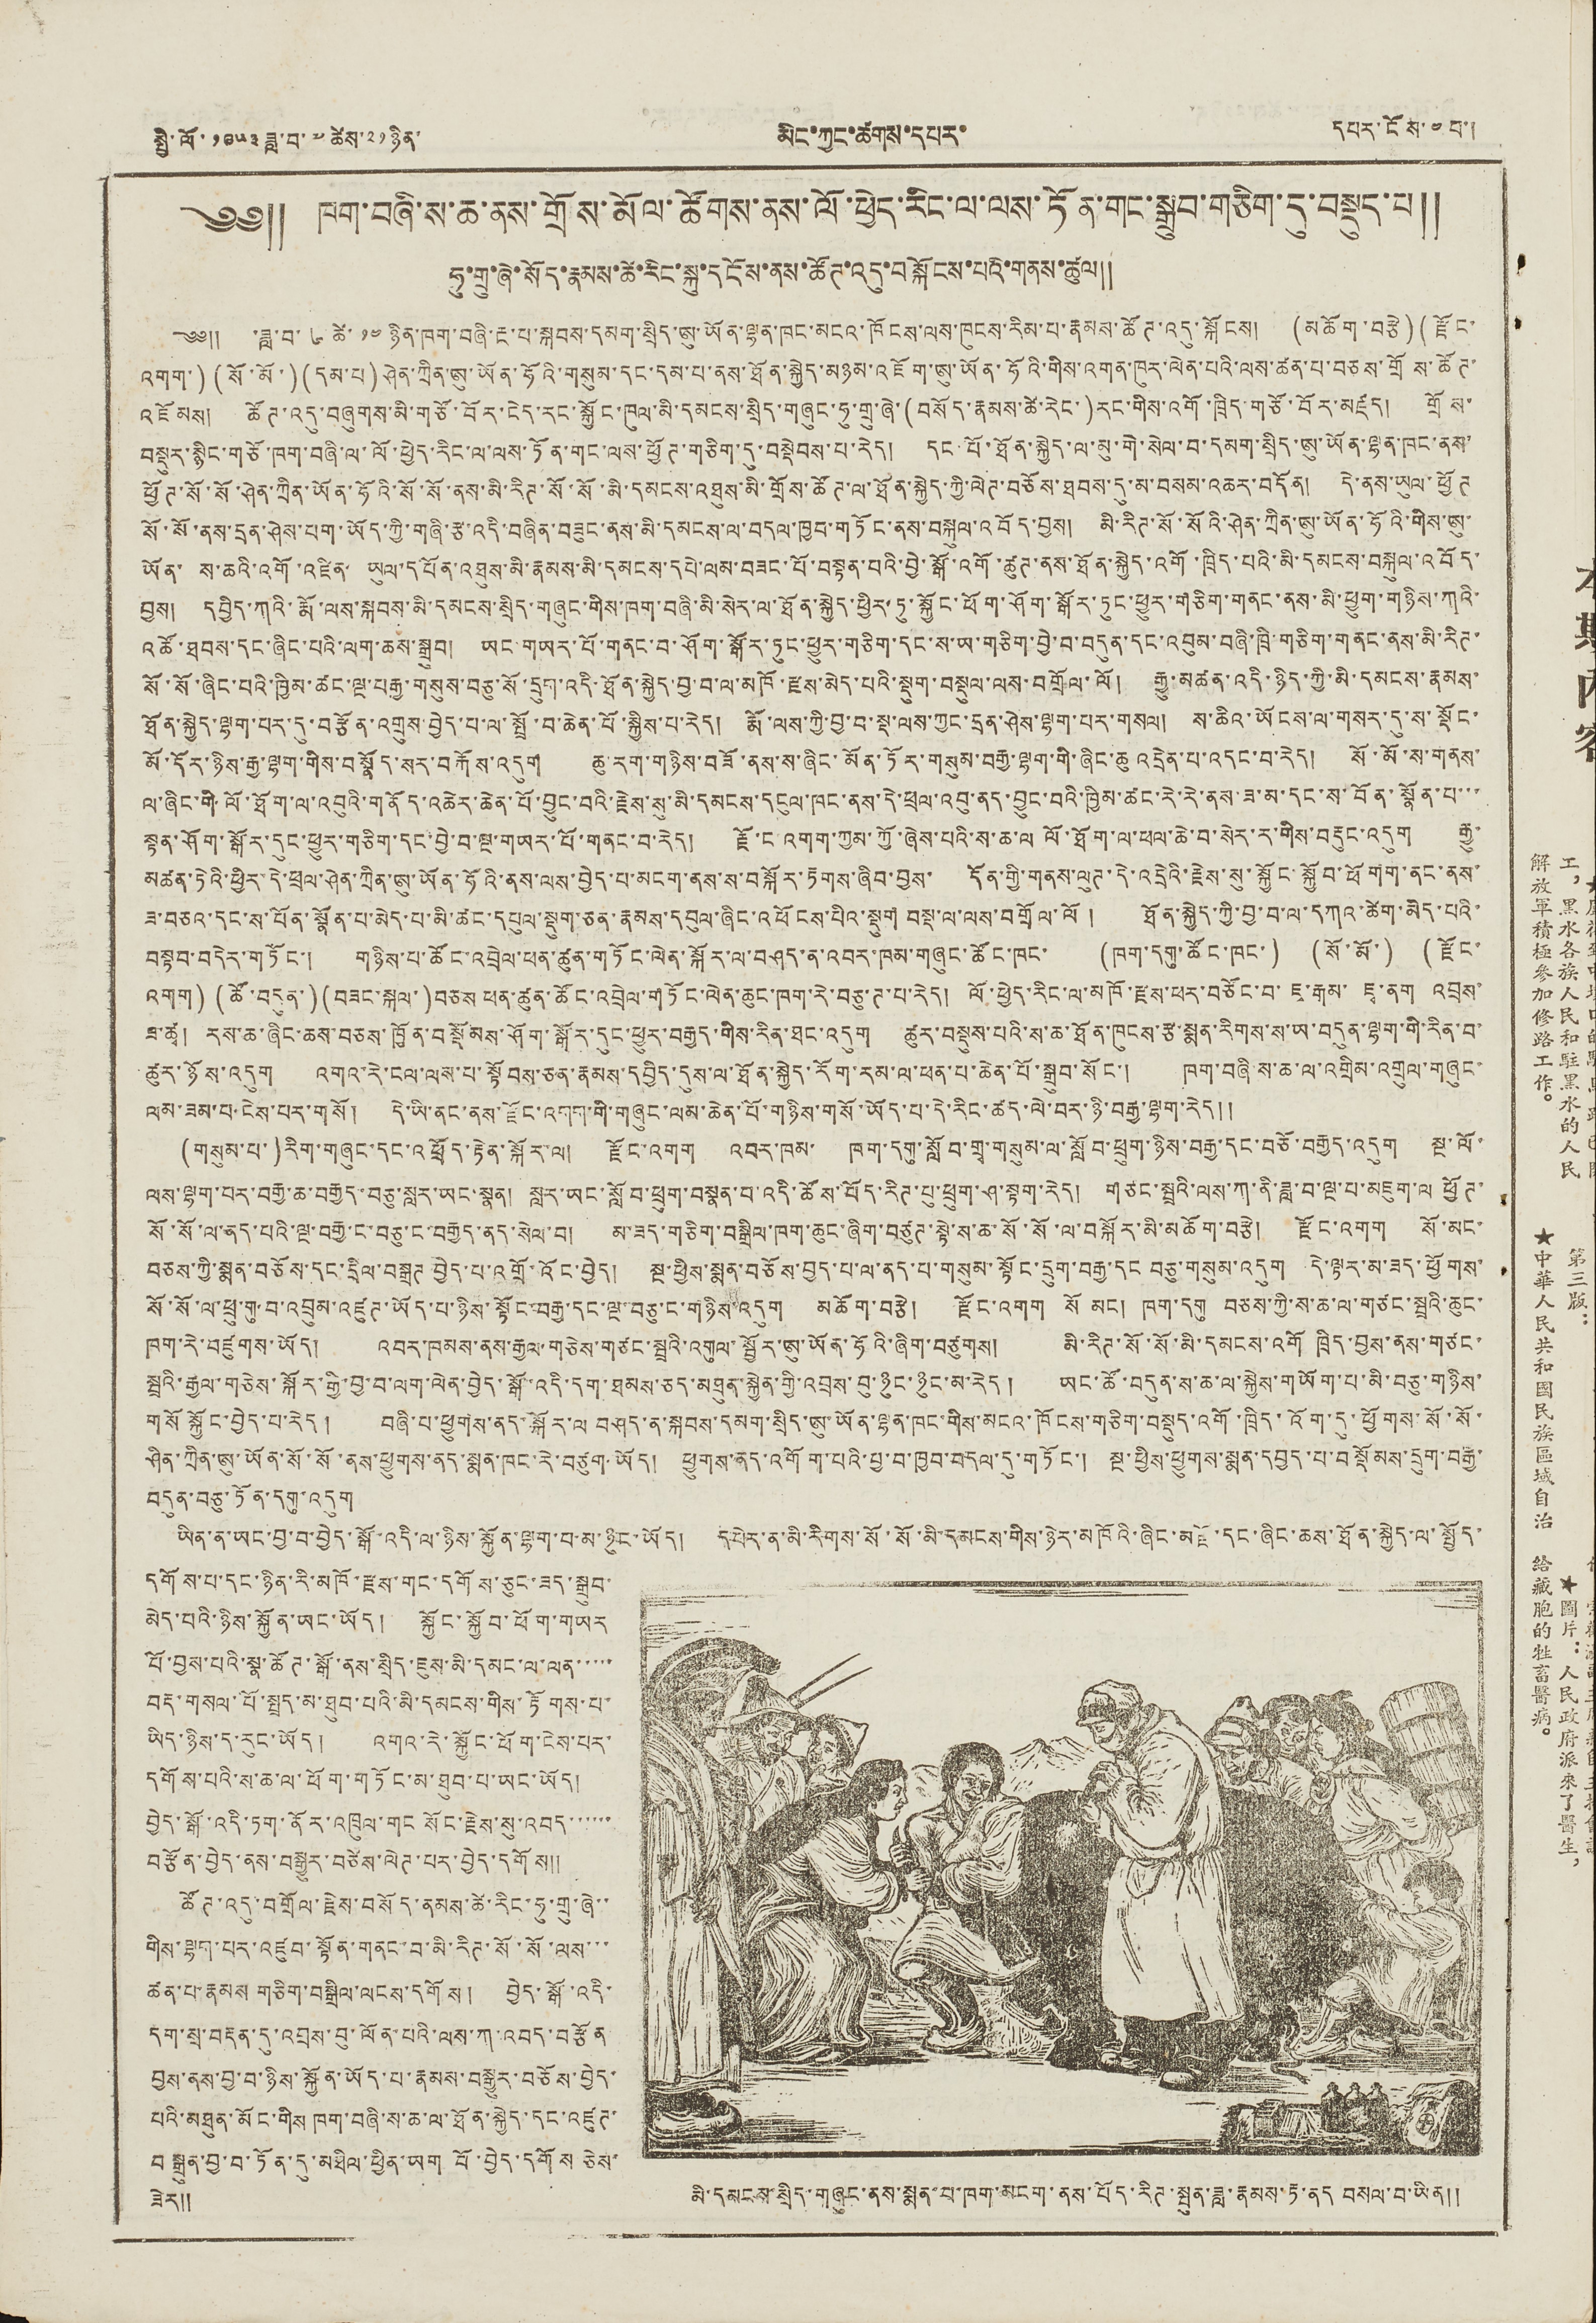སྤྱི་ལོ་ ༡༩༥༣ ཟླ་བ་ ༧ ཚེས་ ༢༡ ཉིན་ མིང་ཀྱང་ཚགས་དཔར་ དཔར་ངོས་ ༤ པ་།
༄༅༎ ཁག་བཞི་ས་ཆ་ནས་གྲོས་མོལ་ཚོགས་ནས་ལོ་ཕྱེད་རིང་ལ་ལས་ཏོན་གང་སྒྲུབ་གཅིག་དུ་བསྡུད་པ༎
ཧུ་གྲུ་ཞེ་སོད་རྣམས་ཚེ་རིང་སྐུ་དངོས་ནས་ཚོཊ་འདུ་བསྐོངས་པའི་གནས་ཚུལ༎
༄༅༎ ་ཟླ་བ་ ༦ ཚེ་ ༡༤ ཉིན་ཁག་བཞི་རྔ་པ་སྐབས་དམག་སྲིད་ཨུ་ཡོན་ལྷན་ཁང་མངའ་ཁོངས་ལས་ཁུངས་རིམ་པ་རྣམས་ཚོཊ་འདུ་སྐོངས། (མཆོག་བརྩེ་) (རྫོང་
འགག་) (སོ་མོ་) (དམ་པ) ཤེན་ཀྲིན་ཨུ་ཡོན་ཧོའི་གསུམ་དང་དམ་པ་ནས་ཐོན་སྐྱེད་མཉམ་འཇོག་ཨུ་ཡོན་ཧོའི་གིས་འགན་ཁུར་ལེན་པའི་ལས་ཚན་པ་བཅས་གྲོས་ཚོཊ་
འཇོམས། ཚོཊ་འདུ་བཞུགས་མི་གཙོ་བོར་ངེད་རང་སྐྱོང་ཁུལ་མི་དམངས་སྲིད་གཞུང་ཧུ་གྲུ་ཞེ་(བསོད་རྣམས་ཚེ་རེང་)རང་གིས་འགོ་ཁྲིད་གཙོ་བོར་མཛད། གྲོས་
བསྡུར་སྙིང་གཙོ་ཁག་བཞི་ལ་ལོ་ཕྱེད་རིང་ལ་ལས་ཏོན་གང་ལས་ཕྱོཊ་གཅིག་དུ་བསྡེབས་པ་རེད། དང་པོ་ཐོན་སྐྱེད་ལ་མུ་གེ་སེལ་བ་དམག་སྲིད་ཨུ་ཡོན་ལྷན་ཁང་ནས་
ཕྱོཊ་སོ་སོ་ཤེན་ཀྲིན་ཡོན་ཧོའི་སོ་སོ་ནས་མི་རིཊ་སོ་སོ་མི་དམངས་འཐུས་མི་གྲོས་ཚོཊ་ལ་ཐོན་སྐྱེད་ཀྱི་ལེཊ་བཅོས་ཐབས་དུ་མ་བསམ་འཆར་བདོན། དེ་ནས་ཡུལ་ཕྱོཊ
སོ་སོ་ནས་དྲན་ཤེས་པག་ཡོད་ཀྱི་གཞི་རྩ་འདི་བཞིན་བཟུང་ནས་མི་དམངས་ལ་བདལ་ཁྱབ་གཏོང་ནས་བསྐུལ་འབོད་བྱས། མི་རིཊ་སོ་སོའི་ཤེན་ཀྲིན་ཨུ་ཡོན་ཧོའི་གིས་ཨུ་
ཡོན་ ས་ཆའི་འགོ་འཛིན་ ཡུལ་དཔོན་འཐུས་མི་རྣམས་མི་དམངས་དཔེ་ལམ་བཟང་པོ་བསྟན་པའི་བྱེ་སྒོ་འགོ་ཚུཊ་ནས་ཐོན་སྐྱེད་འགོ་ཁྲིད་པའི་མི་དམངས་བསྐུལ་འབོད་
བྱས། དབྱིད་ཀའི་རྨོ་ལས་སྐབས་མི་དམངས་སྲིད་གཞུང་གིས་ཁག་བཞི་མི་སེར་ལ་ཐོན་སྐྱེད་ཕྱིར་ཏུ་སྐྱོང་ཕོག་ཤོག་སྒོར་ཏུང་ཕྱུར་གཅིག་གནང་ནས་མི་ཕྱུག་གཉིས་ཀའི་
འཚོ་ཐབས་དང་ཞིང་པའི་ལག་ཆས་སྒྲུབ། ཡང གཡར་པོ་གནང་བ་ཤོག་སྒོར་ཏུང་ཕྱུར་གཅིག་དང་ས་ཡ་གཅིག་བྱེ་བ་བདུན་དང་འབུམ་བཞི་ཁྲི་གཅིག་གནང་ནས་མི་རིཊ་
སོ་སོ་ཞིང་པའི་ཁྱིམ་ཚང་ལྔ་བརྒྱ་གསུས་བཅུ་སོ་དྲུག་འདི་ཐོན་སྐྱེད་བྱ་བ་ལ་མཁོ་རྫས་མེད་པའི་སྡུག་བསྡུལ་ལས་བགྲོལ་ལོ། རྒྱུ་མཚན་འདི་ཉིད་ཀྱི་མི་དམངས་རྣམས་
ཐོན་སྐྱེད་ལྷག་པར་དུ་བརྩོན་འགྲུས་བྱེད་པ་ལ་སྤྲོ་བ་ཆེན་པོ་སྐྱིས་པ་རེད། རྨོ་ལས་ཀྱི་བྱ་བ་སྡ་ལས་ཀྱང་དྲན་ཤེས་ལྷག་པར་གསལ། ས་ཆིའ་ཡོངས་ལ་གསར་དུ་ས་སྡོང་
མོ་དོར་ཉིས་རྒྱ་ལྷག་གིས་བསྣོད་སར་བརྐོས་འདུག ཆུ་རག་གཉིས་བཟོ་ནས་ས་ཞིང་མོན་ཏོར་གསུམ་བརྒྱ་ལྷག་གི་ཞིང་ཆུ འདྲེན་པ་འདང་བ་རེད། སོ་མོ་ས་གནས་
ལ་ཞིང་གི་ལོ་ཐོག་ལ་འབུའི་གནོད་འཚེར་ཆེན་པོ་བྱུང་བའི་རྗེས་སུ་མི་དམངས་དངུལ་ཁང་ནས་དེ་ཕྲལ་འབུ་ནད་བྱུང་བའི་ཁྱིམ་ཚང་རེ་རེ་ནས་ཟ་མ་དང་ས་བོན་སྣོན་པ་་་
སྟན་ཤོག་སྒོར་དུང་ཕྱུར་གཅིག་དང་བྱེ་བ་ལྔ་གཡར་པོ་གནང་བ་རེད། རྗོ་ང འགག་ཀྱམ་ཀྱོ་ཞེས་པའི་ས་ཆ་ལ ལོ་ཐོག་ལ་ཕལ་ཆེ་བ་སེར་ར་གིས་བརྡུང་འདུག རྒྱུ་
མཚན་ཏེའི་ཕྱིར་དེ་ཕྲལ་ཤེན་ཀྲིན་ཨུ་ཡོན་ཧོའི་ནས་ལས་བྱེད་པ་མངག་ནས་ས་བསྐོར་རྟགས་ཞིབ་བྱས་ དོན་གྱི་གནས་ལུཊ་དེ་འདྲེའི་རྗེས་སུ་སྐྱོང་སྐྱོབ་ཕོགག་ནང་ནས་
ཟ་བཅའ་དང་ས་བོན་སྣོན་པ་མེད་པ་མི་ཚང་དཔུལ་སྡུག་ཅན་རྣམས་དབུལ་ཞིང་འཕོངས་པིའ་སྡུག བསྡ་ལ་ལས་བགྲོལ་ལོ ། ཐོན་སྐྱེད་ཀྱི་བྱ་བ་ལ་དགའ་ཚེག་མེད་པའི་
བསྟབ་བདེར་གཏོང་། གཉིས་པ་ཚོང་འབྲེལ་ཕན་ཚུན་གཏོང་ལེན་སྐོར་ལ་བཤད་ན་འབར་ཁམ་གཞུང་ཚོང་ཁང་ (ཁག་དགུ་ཚོང་ཁང་) (སོ་མོ་) (རྫོང་
འགག) (ཚོ་བདུན་) (བཟང་སྐལ་)བཅས ཕན་ཚུན་ཚོང་འབྲེལ་གཏོང་ལེན་ཆུང་ཁག་རེ་བཅུ་ཊ་པ་རེད། ལོ་ཕྱེད་རིང་ལ་མཁོ་རྫས་ཕར་བཙོང་བ་ ཇྭ་རྒམ་ ཇྭ་ནག འབྲས་
ཟ་ཚྭ། རས་ཆ་ཞིང་ཆས་བཅས་ཁྱོན་བསྡོམས་ཤོག་སྒོར་དུང་ཕྱུར་བརྒྱད་གིས་རིན་ཐང་འདུག ཚུར་བསྡུས་པའི་ས་ཆ་ཐོན་ཁུངས་རྩ་སྨན་རིགས་ས་ཡ་བདུན་ལྷག་གི་རིན་བ་
ཚུར་ཉོས་འདུག འགའ་རེ་ངལ་ལས་པ་སྟོབས་ཅན་རྣམས་དབྱིད་དུས་ལ་ཐོན་སྐྱེད་རོག་རམ་ལ་ཕན་པ་ཆེན་པོ་སྒྲུབ་སོང་། ཁག་བཞི་ས་ཆ་ལ་འགྲིམ་འགྲུལ་གཞུང་
ལམ་ཟམ་བ་ངེས་པར་གསོ། དེ་ཡི་ནང་ནས་རྫོང་འགག་གི་གཞུང་ལམ་ཆེན་པོ་གཉིས་གསོ་ཡོད་པ་དེ་རིང་ཚད་ལེ་བར་ཉི་བརྒྱ་ལྷག་རེད༎
(གསུམ་པ་)རིག་གཞུང་དགན་འཕྲོད་རྟེན་སྐོར་ལ། རྫོང་འགག འབར་ཁམ་ ཁག་དགུ་སློབ་གྲྭ་གསུམ་ལ་སློབ་ཕྲུག་ཉིས་བརྒྱ་དང་བཅོ་བརྒྱད་འདུག སྔ་ལོ་
ལས་ལྷག་པར་བརྒྱ་ཆ་བརྒྱད་བཅུ་སླར་ཡང་སྣན། སླར་ཡང་སློབ་ཕྲུག་བསྣན་པ་འདི་ཚོས་བོད་རིཊ་པུ་ཕྲུག་ཤ་སྟག་རེད། གཙང་སྦྲའི་ལས་ཀ་ནི་ཟླ་བ་ལྔ་པ་མཇུག་ལ ཕྱོཊ་
སོ་སོ་ལ་ནད་པའི་ལྔ་བརྒྱ་ང་བཅུ་ང་བརྒྱད་ནས་སེལ་བ། མ་ཟད་གཅིག་བསྒྲིལ་ཁག་ཆུང་ཞིག་བཙུཊ་སྟེ་ས་ཆ་སོ་སོ་ལ་བསྐོར་མི་མཆོག་བརྩེ། རྫོང་འགག སོ་མང་
བཅས་ཀྱི་སྨན་བཅོས་དང་དྲིལ་བསྒྲཊ བྱེད་པ་འགྲོ་འོང་བྱེད། སྔ་ཕྱིས་སྨན་བཅོས་བྱད་པ་ལ་ནད་པ་གསུམ་སྟོང་དྲུག་བརྒྱ་དང བཅུ་གསུམ་འདུག དེ་ལྟར་མ་ཟད་ཕྱོགས་
སོ་སོ་ལ་ཕྲུ་གུ་བ་འབྲུམ་འཛུཊ་ཡོད་པ་ཉིས་སྟོང་བརྒྱ་དང་ལྔ་བཅུ་ང་གཉིས་འདུག མཆོག་བརྩེ། རྫོང་འགག སོ མང། ཁག་དགུ བཅས་ཀྱི་ས་ཆ་ལ་གཙང་སྦྲའི་ཆུང་
ཁག་རེ་བཛུགས་ཡོད། འབར་ཁམས་ནས་རྒྱལ་གཅེས་གཙང་སྦྲའི་འགུལ་སྦྱོར་ཨུ་ཡོན་ཧོའི་ཞིག་བཙུགས། མི་རིཊ་སོ་སོ་མི་དམངས་འགོ ཁྲིད་བྱས་ནས་གཙང་
སྦྲའི་རྒྱལ་གཅེས་སྐོར་གྱི་བྱ་བ་ལག་ལེན་བྱེད་སྒོ་འདི་དག་ཐམས་ཅད་མཐུན་སྐྱེན་གྱི་འབྲས་བུ་ཉུང་ཉུང་མ་རེད། ཡང་ཚོ་བདུན་ས་ཆ་ལ་སྐྱེས་གཡོག་པ་མི་བཅུ་གཉིས་
གསོ སྐྱོང་བྱེད་པ་རེད། བཞི་པ་ཕྱུགས་ནད་སྐོར་ལ བཤད་ན་སྐབས་དམག་སྲིད་ཨུ་ཡོན་ལྷན་ཁང་གིས་མངའ་ཁོངས་གཅིག་བསྡུད་འགོ་ཁྲིད་འོག་དུ་ཕྱོགས་སོ་སོ་
ཤིན་ཀྲིན་ཨུ་ཡོན་སོ་སོ་ནས་ཕྱུགས་ནད་སྨན་ཁང་རེ་བཙུག་ཡོད། ཕྱུགས་ནད་འགོག་པའི་བྱ་བ་ཁྱབ་བདལ་དུ་བཏོང་། སྔ་ཕྱིས་ཕྱུགས་སྨན་དབྱད་པ་བསྡོམས་དྲུག་བརྒྱ་
བདུན་བཅུ་ཏོན་དགུ་འདུག
ཡིན་ན་ཡང་བྱ་བ་བྱེད་སྒོ་འདི་ལ་ཉིས་སྐྱོན་ལྷག་པ་མ་ཉུང་ཡོད། དཔེར་ན་མི་རིགས་སོ་སོ་མི་དམངས་གིས་ཉེར་མཁོའི་ཞིང་མཛོ་དང་ཞིང་ཆས་ཐོན་སྐྱེད་ལ་སྤྱོད་
དགོས་པ་དང་ཉིན་རི་མཁོ་རྫས་གང་དགོས་ཅུང་ཟད་སྒྲུབ་
མེད་པའི་ཉིས་སྐྱོན་ཡང་ཡོད། སྐྱོང་སྐྱོབ་ཕོ་གཡར
པོ་བྱས་པའི་སྣ་ཚོཊ་སྒོ་ནས་སྲིད་ཇུས་མི་དམང་ལ་ལན་་་་་
བརྡ་གསལ་པོ་སྤྲད་མ་ཐུབ་པའི་མི་དམངས་གིས་རྟོགས་པ་
ཡིད་ཉིས་ད་རུང་ཡོད། འགའ་རེ་སྐྱོང་ཕོག་ངེས་པར་
དགོས་པའི་ས་ཆ་ལ་ཕོག་གཏོང་མ་ཐུབ་པ་ཡང་ཡོད།
བྱེད་སྒོ་འདི་ཏག་ནོར་འཁྲུལ་གང སོང་རྗེས་སུ་འབད་་་་་་
བརྩོན་བྱེད་ནས་བསྒྱུར་བཙེས་ལེཊ་པར་བྱེད་དགོས༎
ཚོཊ་འདུ་བགྲོལ་རྗེས་བསོད་ནམས་ཚེ་རིང་ཧུ་གྲུ་ཞེ་་
གིས་ལྷག་པར་འཛུབ་སྟོན་གནང་བ་མི་རིཊ་སོ་སོ་ལས་་་
ཚན་པ་རྣམས གཅིག་བསྒྲིལ་ལངས་དགོས། བྱེད་སྒོ་འདི་
དག་སྲ་བརྡན་དུ་འབྲས་བུ་ལོན་པའི་ལས་ཀ་འབད་བརྩོན
བྱས་ནས་བྱ་བ་ཉིས་སྐྱོན་ཡོད་པ་རྣམས་བསྒྱུར་བཅོས་བྱེད་
པའི་མཐུན་མོང་གིས ཁག་བཞི་ས་ཆ་ལ་ཐོན་སྐྱེད་དང་འཛུཊ་
བསྒྲུན་བྱ་བ་ཏོན་དུ་མཐིལ་ཕྱིན་ཡག པོ་བྱེད་དགོས ཅེས་
ཟེར༎
མི་དམངས་སྲིད་གཞུང་ནས་སྨན་པ་ཁག་མངག་ནས་བོད་རིཊ་སྤུན་ཟླ་རྣམས་རྟ་ནད བསལ་བ་ཡིན༎
本 期 內 容
★蘆花到中壤口的騾馬路已開
工，黑水各族人民和駐黑水的人民
解放軍積極參加修路工作
第三版：
★中華人民共和國民族區域自治
作，索觀瀛副主席親自主持會議。
★圖片：人民政府派來了醫生，
給藏胞的牲畜醫病。
